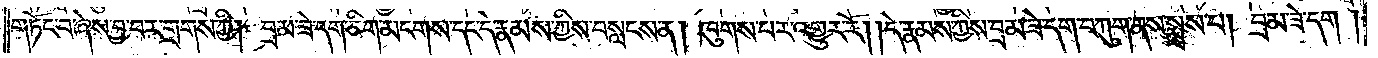གཏོང་བ་ཞེས་བྱ་བར་གྲགས་ཀྱི། བྲམ་ཟེ་དག་ཅིག་མངགས་དང་དེ་རྣམས་ཀྱིས་བསླངས་ན། ཁུགས་པར་འགྱུར་རོ། །དེ་རྣམས་ཀྱིས་བྲམ་ཟེ་དག་བཀུག་ནས་སྨྲས་པ། བྲམ་ཟེ་དག །
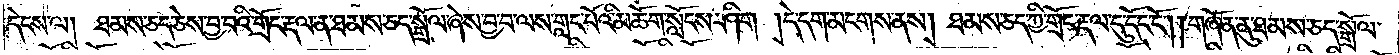དེངས་ལ། ཐམས་ཅད་ཅེས་བྱ་བའི་གྲོང་རྡལ་ན་ཐམས་ཅད་སྒྲོལ་ཞེས་བྱ་བ་ལས་གླང་པོའི་མཆོག་སློངས་ཤིག །དེ་དག་མངགས་ནས། ཐམས་ཅད་ཀྱི་གྲོང་རྡལ་དུ་དོང་ངོ༌། །གཞོན་ནུ་ཐམས་ཅད་སྒྲོལ་
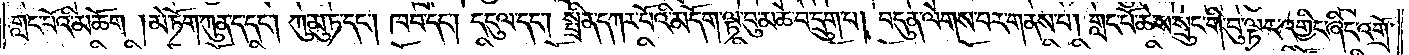གླང་པོའི་མཆོག །མེ་ཏོག་ཀུན་ད་དང༌། ཀུ་མུ་ཏ་དང༌། ཁབ་དང༌། དངུལ་དང༌། སྤྲིན་དཀར་པོའི་མདོག་ལྟ་བུ་མཆེ་བ་དྲུག་པ། བདུན་ལེགས་པར་གནས་པ། གླང་པོ་ཆེས་སྲུང་གི་བུ་ལྟར་འགྱིང་ཞིང་འགྲོ་
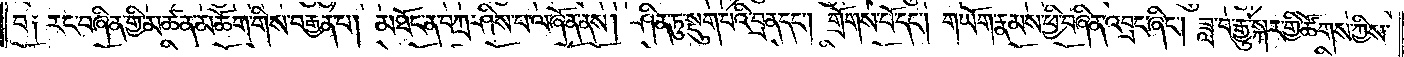བ༑ རང་བཞིན་གྱི་མཚན་མཆོག་གིས་བརྒྱན་པ། མཐོང་ན་བཀྲ་ཤིས་པ་ལ་ཞོན་ནས། ཤིན་ཏུ་སྡུག་པའི་བྲན་དང༌། གྲོགས་པོ་དང༌། གཡོག་རྣམས་ཕྱི་བཞིན་འབྲང་ཞིང༌། ཟླ་བ་རྒྱུ་སྐར་གྱི་ཚོགས་ཀྱིས་
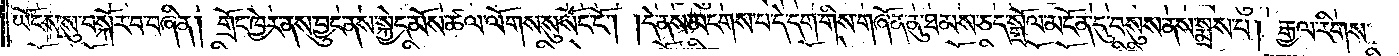ཡོངས་སུ་བསྐོར་བ་བཞིན། གྲོང་ཁྱེར་ནས་བྱུང་ནས་སྐྱེད་མོས་ཚལ་ལོགས་སུ་སོང་ངོ༌། །དེ་ནས་མངགས་པ་དེ་དག་གིས་གཞོན་ནུ་ཐམས་ཅད་སྒྲོལ་མངོན་དུ་བསུས་ནས་སྨྲས་པ། རྒྱལ་རིགས་
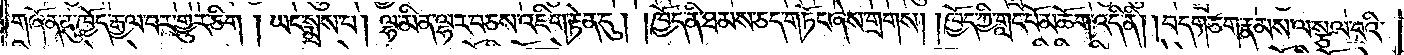གཞོན་ནུ་ཁྱོད་རྒྱལ་བར་གྱུར་ཅིག །ཡང་སྨྲས་པ། ལྷ་མིན་ལྷར་བཅས་འཇིག་རྟེན་དུ། །ཁྱོད་ནི་ཐམས་ཅད་གཏོང་ཞེས་གྲགས། །ཁྱོད་ཀྱི་གླང་པོ་མཆོག་འདི་ནི། །བདག་ཅག་རྣམས་ལ་སྩལ་བའི་
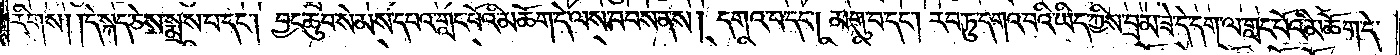རིགས། །དེ་སྐད་ཅེས་སྨྲས་པ་དང༌། བྱང་ཆུབ་སེམས་དཔའ་གླང་པོའི་མཆོག་དེ་ལས་བབས་ནས། དགའ་བ་དང༌། མགུ་བ་དང༌། རབ་ཏུ་དགའ་བའི་ཡིད་ཀྱིས་བྲམ་ཟེ་དེ་དག་ལ་གླང་པོའི་མཆོག་དེ་
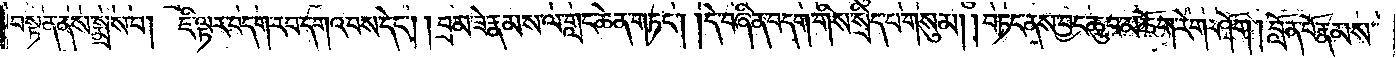བསྟན་ནས་སྨྲས་པ། ཇི་ལྟར་བདག་རབ་དགའ་བས་དེང༌། །བྲམ་ཟེ་རྣམས་ལ་གླང་ཆེན་གཏང༌། །དེ་བཞིན་བདག་གིས་སྲིད་པ་གསུམ། །བཏང་ནས་བྱང་ཆུབ་མཆོག་རེག་ཤོག །བློན་པོ་རྣམས་
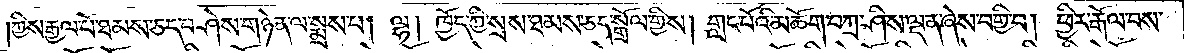།ཀྱིས་རྒྱལ་པོ་ཐམས་ཅད་བཤེས་གཉེན་ལ་སྨྲས་པ། ལྷ། ཁྱོད་ཀྱི་སྲས་ཐམས་ཅད་སྒྲོལ་གྱིས། གླང་པོའི་མཆོག་བཀྲ་ཤིས་ལྡན་ཞེས་བགྱི་བ། ཕྱིར་རྒོལ་བས་
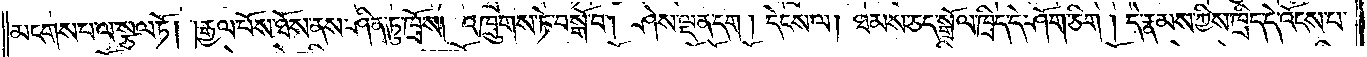མངགས་པ་ལ་སྩལ་ཏོ། །རྒྱལ་པོས་ཐོས་ནས་ཤིན་ཏུ་ཁྲོས། འཁྲུགས་ཏེ་བསྒོ་བ། ཤེས་ལྡན་དག །དེངས་ལ། ཐམས་ཅད་སྒྲོལ་ཁྲིད་དེ་ཤོག་ཅིག །དེ་རྣམས་ཀྱིས་ཁྲིད་དེ་འོངས་པ་
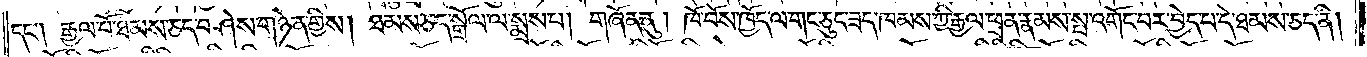དང༌། རྒྱལ་པོ་ཐམས་ཅད་བཤེས་གཉེན་གྱིས། ཐམས་ཅད་སྒྲོལ་ལ་སྨྲས་པ། གཞོན་ནུ། ཁོ་བོས་ཁྱོད་ལ་གང་ཅུང་ཟད་ཁམས་ཀྱི་རྒྱལ་ཕྲན་རྣམས་སྤ་འགོང་བར་བྱེད་པ་དེ་ཐམས་ཅད་ནི།
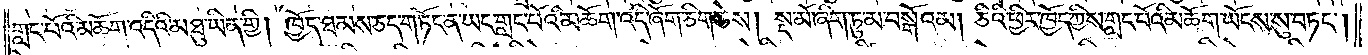གླང་པོའི་མཆོག་འདིའི་མཐུ་ཡིན་གྱི། ཁྱོད་ཐམས་ཅད་གཏོང་ན་ཡང་གླང་པོའི་མཆོག་འདི་ཞོག་ཅིག་ཅེས། སྔ་མོ་ཞིག་ཏུ་མ་བསྒོའམ། ཅིའི་ཕྱིར་ཁྱོད་ཀྱིས་གླང་པོའི་མཆོག་ཡོངས་སུ་བཏང༌།
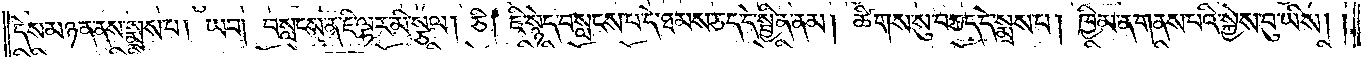དེས་མཉན་ནས་སྨྲས་པ། ཡབ། བསླངས་ན་ཇི་ལྟར་མི་སྩལ། ཅི། ཇི་སྙེད་བསླངས་པ་དེ་ཐམས་ཅད་དེ་སྦྱིན་ནམ། ཚིགས་སུ་བཅད་དེ་སྨྲས་པ། ཁྱིམ་ན་གནས་པའི་སྐྱེས་བུ་ཡིས། །
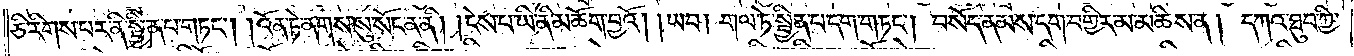ཅི་རིགས་པར་ནི་སྦྱིན་པ་གཏང༌། །འོན་ཏེ་ནགས་སུ་སོང་ན་ནི། །ངེས་པ་ཡིན་ནི་མཆོག་བྱའོ། །ཡབ། གལ་ཏེ་སྦྱིན་པ་དག་གཏང༌། བསོད་ནམས་དག་བགྱིར་མ་མཆིས་ན། དཀའ་ཐུབ་ཀྱི་
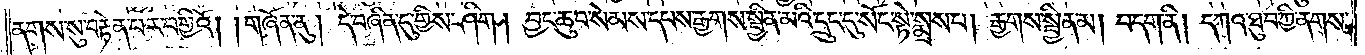ནགས་སུ་བརྟན་པར་བགྱིའོ། །གཞོན་ནུ། དེ་བཞིན་དུ་གྱིས་ཤིག །བྱང་ཆུབ་སེམས་དཔས་རྒྱགས་སྦྱིན་མའི་དྲུང་དུ་སོང་སྟེ་སྨྲས་པ། རྒྱགས་སྦྱིན་མ། བདག་ནི། དཀའ་ཐུབ་ཀྱི་ནགས་
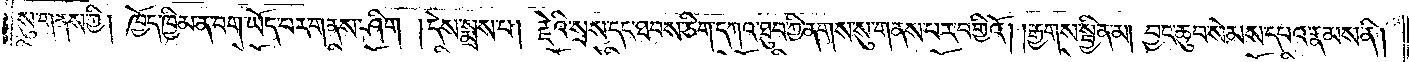སུ་གནས་ཀྱི། ཁྱོད་ཁྱིམ་ན་བག་ཡོད་པར་གནས་ཤིག །དེས་སྨྲས་པ། རྗེའི་སྲས་དང་ཐབས་ཅིག་དཀའ་ཐུབ་ཀྱི་ནགས་སུ་གནས་པར་བགྱིའོ། །རྒྱགས་སྦྱིན་མ། བྱང་ཆུབ་སེམས་དཔའ་རྣམས་ནི།
